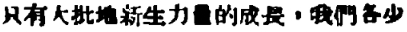只有大批地新生力量的成長，我們各少
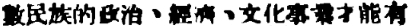數民族的政治、經濟、文化事業才能有
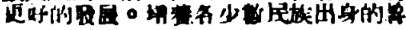更好的發展。培養各少數民族出身的幹
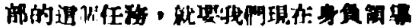部的這個任務，就要我們現在身負領導
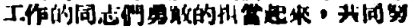工作的同志們勇敢的担當起來，共同努
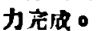力完成。
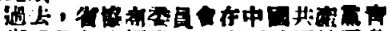過去，省協商委員會在中國共產黨靑
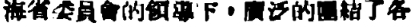海省委員會的領導下，廣泛的團結了各
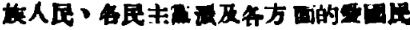族人民、各民主黨派及各方面的愛國民
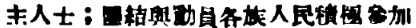主人士；團結與動員各族人民積極參加
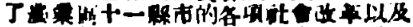了農業區十一縣市的各項社會改革以及
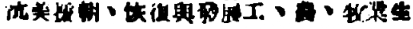抗美援朝、回覆與發展工、農、牧業生
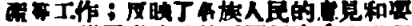產等工作；反映了各族人民的意見和要
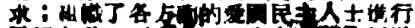求；組織了各方面的愛國民主人士進行
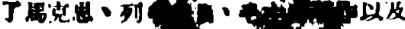了馬克思、列寧主義、毛澤東著作以及
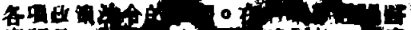各項政策法令的學習。在牧業區建設醫
